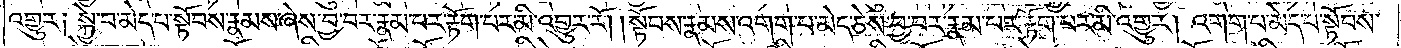འགྱུར༏ སྐྱེ་བ་མེད་པ་སྟོབས་རྣམས་ཞེས་བྱ་བར་རྣམ་པར་རྟོག་པར་མི་འགྱུར་རོ། །སྟོབས་རྣམས་འགག་པ་མེད་ཅེས་བྱ་བར་རྣམ་པར་རྟོག་པར་མི་འགྱུར། འགག་པ་མེད་པ་སྟོབས་
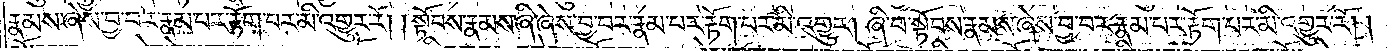རྣམས་ཞེས་བྱ་བར་རྣམ་པར་རྟོག་པར་མི་འགྱུར་རོ། །སྟོབས་རྣམས་ཞི་ཞེས་བྱ་བར་རྣམ་པར་རྟོག་པར་མི་འགྱུར། ཞི་བ་སྟོབས་རྣམས་ཞེས་བྱ་བར་རྣམ་པར་རྟོག་པར་མི་འགྱུར་རོ། །
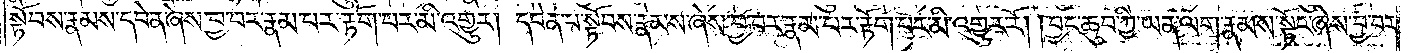སྟོབས་རྣམས་དབེན་ཞེས་བྱ་བར་རྣམ་པར་རྟོག་པར་མི་འགྱུར། དབེན་པ་སྟོབས་རྣམས་ཞེས་བྱ་བར་རྣམ་པར་རྟོག་པར་མི་འགྱུར་རོ། །བྱང་ཆུབ་ཀྱི་ཡན་ལག་རྣམས་སྟོང་ཞེས་བྱ་བར་
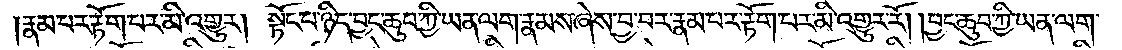རྣམ་པར་རྟོག་པར་མི་འགྱུར། སྟོང་པ་ཉིད་བྱང་ཆུབ་ཀྱི་ཡན་ལག་རྣམས་ཞེས་བྱ་བར་རྣམ་པར་རྟོག་པར་མི་འགྱུར་རོ། །བྱང་ཆུབ་ཀྱི་ཡན་ལག་
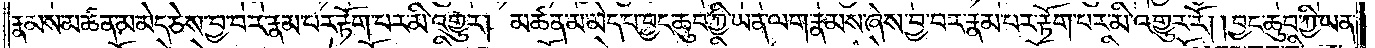རྣམས་མཚན་མ་མེད་ཅེས་བྱ་བར་རྣམ་པར་རྟོག་པར་མི་འགྱུར། མཚན་མ་མེད་པ་བྱང་ཆུབ་ཀྱི་ཡན་ལག་རྣམས་ཞེས་བྱ་བར་རྣམ་པར་རྟོག་པར་མི་འགྱུར་རོ། །བྱང་ཆུབ་ཀྱི་ཡན་
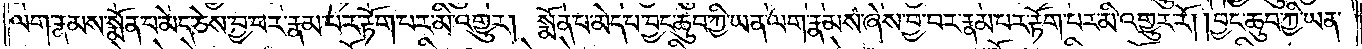ལག་རྣམས་སྨོན་པ་མེད་ཅེས་བྱ་བར་རྣམ་པར་རྟོག་པར་མི་འགྱུར། སྨོན་པ་མེད་པ་བྱང་ཆུབ་ཀྱི་ཡན་ལག་རྣམས་ཞེས་བྱ་བར་རྣམ་པར་རྟོག་པར་མི་འགྱུར་རོ། །བྱང་ཆུབ་ཀྱི་ཡན་
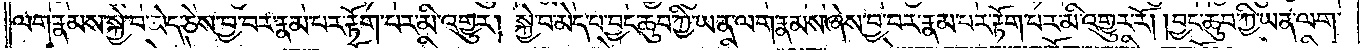ལག་རྣམས་སྐྱེ་བ་མེད་ཅེས་བྱ་བར་རྣམ་པར་རྟོག་པར་མི་འགྱུར། སྐྱེ་བ་མེད་པ་བྱང་ཆུབ་ཀྱི་ཡན་ལག་རྣམས་ཞེས་བྱ་བར་རྣམ་པར་རྟོག་པར་མི་འགྱུར་རོ། །བྱང་ཆུབ་ཀྱི་ཡན་ལག་
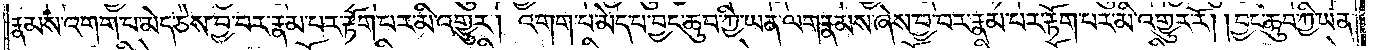རྣམས་འགག་པ་མེད་ཅེས་བྱ་བར་རྣམ་པར་རྟོག་པར་མི་འགྱུར། འགག་པ་མེད་པ་བྱང་ཆུབ་ཀྱི་ཡན་ལག་རྣམས་ཞེས་བྱ་བར་རྣམ་པར་རྟོག་པར་མི་འགྱུར་རོ། །བྱང་ཆུབ་ཀྱི་ཡན་
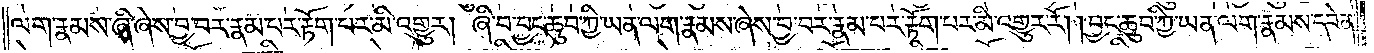ལག་རྣམས་ཞི་ཞེས་བྱ་བར་རྣམ་པར་རྟོག་པར་མི་འགྱུར། ཞི་བ་བྱང་ཆུབ་ཀྱི་ཡན་ལག་རྣམས་ཞེས་བྱ་བར་རྣམ་པར་རྟོག་པར་མི་འགྱུར་རོ། །བྱང་ཆུབ་ཀྱི་ཡན་ལག་རྣམས་དབེན་
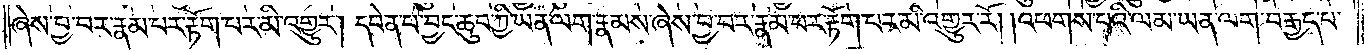ཞེས་བྱ་བར་རྣམ་པར་རྟོག་པར་མི་འགྱུར། དབེན་པ་བྱང་ཆུབ་ཀྱི་ཡན་ལག་རྣམས་ཞེས་བྱ་བར་རྣམ་པར་རྟོག་པར་མི་འགྱུར་རོ། །འཕགས་པའི་ལམ་ཡན་ལག་བརྒྱད་པ་
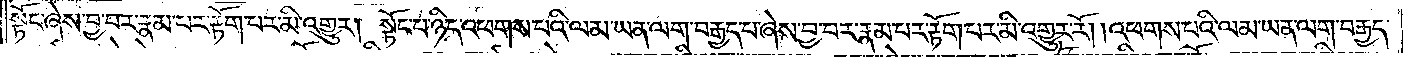སྟོང་ཞེས་བྱ་བར་རྣམ་པར་རྟོག་པར་མི་འགྱུར། སྟོང་པ་ཉིད་འཕགས་པའི་ལམ་ཡན་ལག་བརྒྱད་པ་ཞེས་བྱ་བར་རྣམ་པར་རྟོག་པར་མི་འགྱུར་རོ། །འཕགས་པའི་ལམ་ཡན་ལག་བརྒྱད་
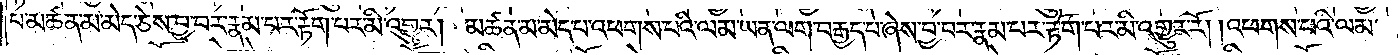པ་མཚན་མ་མེད་ཅེས་བྱ་བར་རྣམ་པར་རྟོག་པར་མི་འགྱུར། མཚན་མ་མེད་པ་འཕགས་པའི་ལམ་ཡན་ལག་བརྒྱད་པ་ཞེས་བྱ་བར་རྣམ་པར་རྟོག་པར་མི་འགྱུར་རོ། །འཕགས་པའི་ལམ་
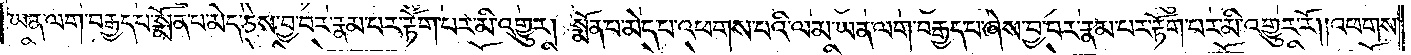ཡན་ལག་བརྒྱད་པ་སྨོན་པ་མེད་ཅེས་བྱ་བར་རྣམ་པར་རྟོག་པར་མི་འགྱུར། སྨོན་པ་མེད་པ་འཕགས་པའི་ལམ་ཡན་ལག་བརྒྱད་པ་ཞེས་བྱ་བར་རྣམ་པར་རྟོག་པར་མི་འགྱུར་རོ། །འཕགས་
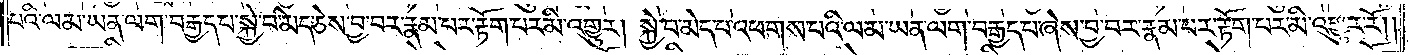པའི་ལམ་ཡན་ལག་བརྒྱད་པ་སྐྱེ་བ་མེད་ཅེས་བྱ་བར་རྣམ་པར་རྟོག་པར་མི་འགྱུར། སྐྱེ་བ་མེད་པ་འཕགས་པའི་ལམ་ཡན་ལག་བརྒྱད་པ་ཞེས་བྱ་བར་རྣམ་པར་རྟོག་པར་མི་འགྱུར་རོ། །
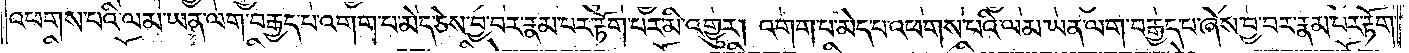འཕགས་པའི་ལམ་ཡན་ལག་བརྒྱད་པ་འགག་པ་མེད་ཅེས་བྱ་བར་རྣམ་པར་རྟོག་པར་མི་འགྱུར། འགག་པ་མེད་པ་འཕགས་པའི་ལམ་ཡན་ལག་བརྒྱད་པ་ཞེས་བྱ་བར་རྣམ་པར་རྟོག་
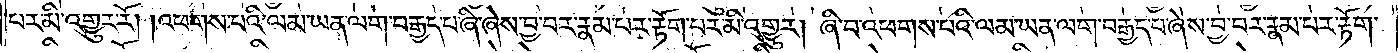པར་མི་འགྱུར་རོ། །འཕགས་པའི་ལམ་ཡན་ལག་བརྒྱད་པ་ཞི་ཞེས་བྱ་བར་རྣམ་པར་རྟོག་པར་མི་འགྱུར། ཞི་བ་འཕགས་པའི་ལམ་ཡན་ལག་བརྒྱད་པ་ཞེས་བྱ་བར་རྣམ་པར་རྟོག་
